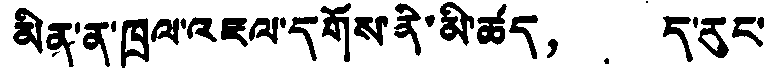མིན་ན་ཁྲལ་འཇལ་དགོས་ནི་མི་ཚད， ད་རུང་
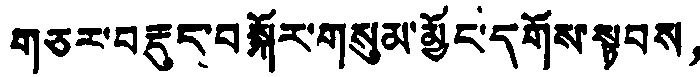གཅར་བརྡུད་བསྐོར་གསུམ་མྱོང་དགོས་སྟབས，
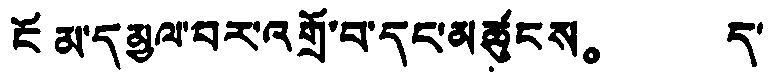ངོམ་དམྱལ་བར་འགྲོ་བ་དང་མཚུངས。 ད་
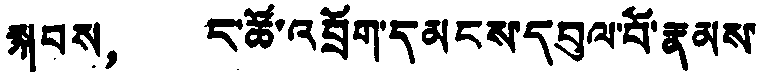སྐབས， ང་ཚོ་འབྲོག་དམངས་དབུལ་པོ་རྣམས་
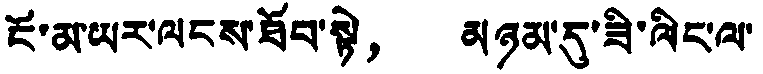ངོ་མ་ཡར་ལངས་ཐོབ་སྟེ， མཉམ་དུ་ཟི་ལིང་ལ་
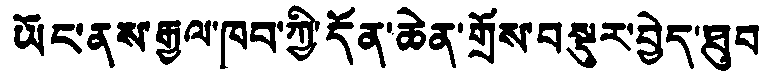ཡོང་ནས་རྒྱལ་ཁབ་ཀྱི་དོན་ཆེན་གྲོས་བསྡུར་བྱེད་ཐུབ
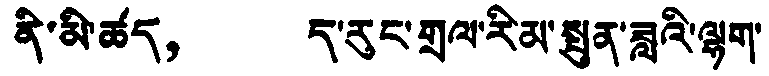ནི་མི་ཚད， ད་རུང་གྲལ་རིམ་སྤུན་ཟླའི་ལྷག་
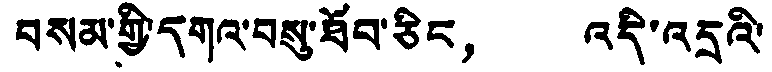བསམ་གྱི་དགའ་བསུ་ཐོབ་ཅིང， འདི་འདྲའི་
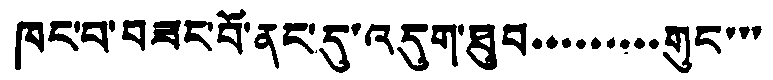ཁང་བ་བཟང་བོ་ནང་དུ་འདུག་ཐུབ་་་་་་་་་གུང་་་
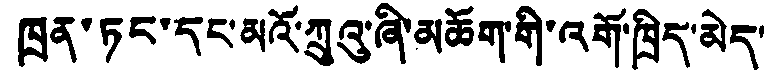ཁྲན་ཏང་དང་མའོ་ཀྲུའུ་ཞི་མཆོག་གི་འགོ་ཁྲིད་མེད་
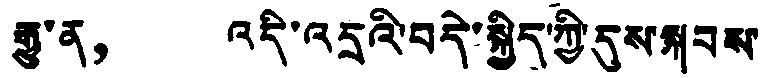རྒྱུ་ན， འདི་འདྲའི་བདེ་སྐྱིད་ཀྱི་དུས་སྐབས་
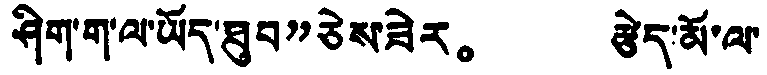ཤིག་ག་ལ་ཡོད་ཐུབ”ཅེས་ཟེར。 རྩེད་མོ་ལ་
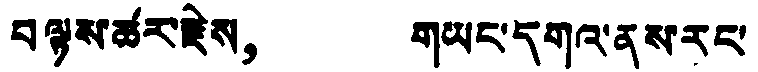བལྟས་ཚར་རྗེས， གཡང་དགའ་ནས་རང་
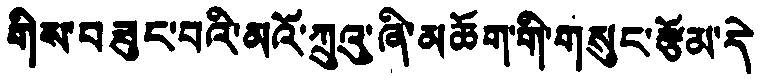གིས་བཟུང་བའི་མའོ་ཀྲུའུ་ཞི་མཆོག་གི་གསུང་རྩོམ་དེ
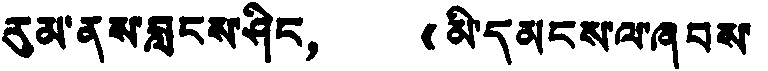རུམ་ནས་བླངས་ཤིང， 《མི་དམངས་ལ་ཞབས་
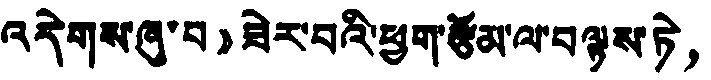འདེགས་ཞུ་བ》ཟེར་བའི་ཕྱག་རྩོམ་ལ་བལྟས་ཏེ，
